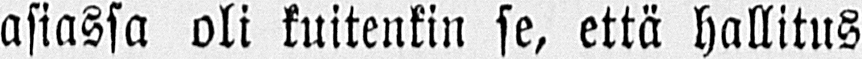asiassa oli kuitenkin se, että hallitus
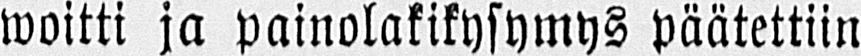woitti ja painolakikysymys päätettiin
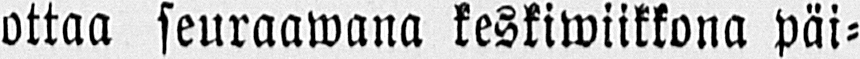ottaa seuraawana keskiwiikkona päi-
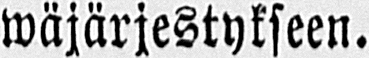wäjärjestykseen.
